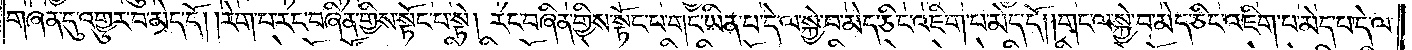གཞན་དུ་འགྱུར་བ་མེད་དོ། །རེག་པ་རང་བཞིན་གྱིས་སྟོང་པ་སྟེ། རང་བཞིན་གྱིས་སྟོང་པ་གང་ཡིན་པ་དེ་ལ་སྐྱེ་བ་མེད་ཅིང་འཇིག་པ་མེད་དོ། །གང་ལ་སྐྱེ་བ་མེད་ཅིང་འཇིག་པ་མེད་པ་དེ་ལ་
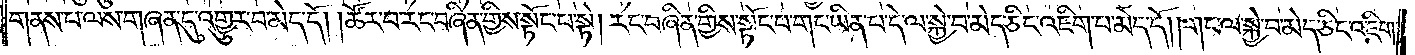གནས་པ་ལས་གཞན་དུ་འགྱུར་བ་མེད་དོ། །ཚོར་བ་རང་བཞིན་གྱིས་སྟོང་པ་སྟེ། རང་བཞིན་གྱིས་སྟོང་པ་གང་ཡིན་པ་དེ་ལ་སྐྱེ་བ་མེད་ཅིང་འཇིག་པ་མེད་དོ། །གང་ལ་སྐྱེ་བ་མེད་ཅིང་འཇིག་
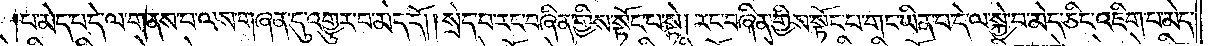པ་མེད་པ་དེ་ལ་གནས་པ་ལས་གཞན་དུ་འགྱུར་བ་མེད་དོ། །སྲེད་པ་རང་བཞིན་གྱིས་སྟོང་པ་སྟེ། རང་བཞིན་གྱིས་སྟོང་པ་གང་ཡིན་པ་དེ་ལ་སྐྱེ་བ་མེད་ཅིང་འཇིག་པ་མེད་
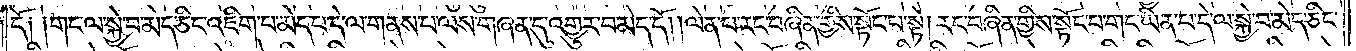དོ༑ ༑གང་ལ་སྐྱེ་བ་མེད་ཅིང་འཇིག་པ་མེད་པ་དེ་ལ་གནས་པ་ལས་གཞན་དུ་འགྱུར་བ་མེད་དོ། །ལེན་པ་རང་བཞིན་གྱིས་སྟོང་པ་སྟེ། རང་བཞིན་གྱིས་སྟོང་པ་གང་ཡིན་པ་དེ་ལ་སྐྱེ་བ་མེད་ཅིང་
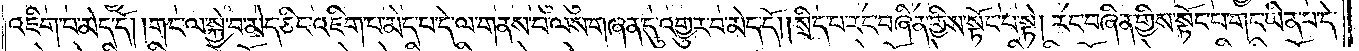འཇིག་པ་མེད་དོ། །གང་ལ་སྐྱེ་བ་མེད་ཅིང་འཇིག་པ་མེད་པ་དེ་ལ་གནས་པ་ལས་གཞན་དུ་འགྱུར་བ་མེད་དོ། །སྲིད་པ་རང་བཞིན་གྱིས་སྟོང་པ་སྟེ། རང་བཞིན་གྱིས་སྟོང་པ་གང་ཡིན་པ་དེ་
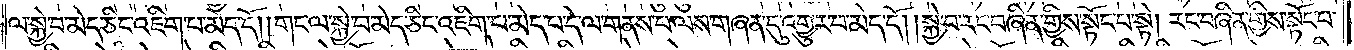ལ་སྐྱེ་བ་མེད་ཅིང་འཇིག་པ་མེད་དོ། །གང་ལ་སྐྱེ་བ་མེད་ཅིང་འཇིག་པ་མེད་པ་དེ་ལ་གནས་པ་ལས་གཞན་དུ་འགྱུར་བ་མེད་དོ། །སྐྱེ་བ་རང་བཞིན་གྱིས་སྟོང་པ་སྟེ། རང་བཞིན་གྱིས་སྟོང་པ་
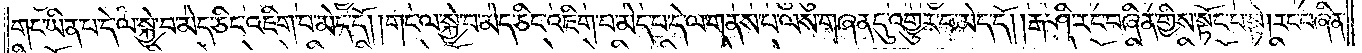གང་ཡིན་པ་དེ་ལ་སྐྱེ་བ་མེད་ཅིང་འཇིག་པ་མེད་དོ། །གང་ལ་སྐྱེ་བ་མེད་ཅིང་འཇིག་པ་མེད་པ་དེ་ལ་གནས་པ་ལས་གཞན་དུ་འགྱུར་བ་མེད་དོ། །རྒ་ཤི་རང་བཞིན་གྱིས་སྟོང་པ་སྟེ། རང་བཞིན་
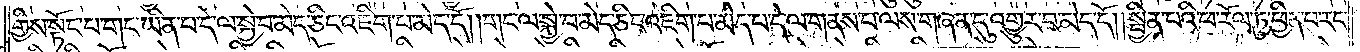གྱིས་སྟོང་པ་གང་ཡིན་པ་དེ་ལ་སྐྱེ་བ་མེད་ཅིང་འཇིག་པ་མེད་དོ། །གང་ལ་སྐྱེ་བ་མེད་ཅིང་འཇིག་པ་མེད་པ་དེ་ལ་གནས་པ་ལས་གཞན་དུ་འགྱུར་བ་མེད་དོ། །སྦྱིན་པའི་ཕ་རོལ་ཏུ་ཕྱིན་པ་རང་
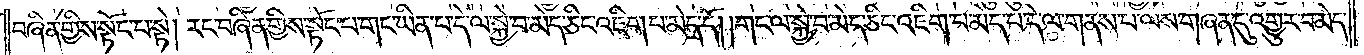བཞིན་གྱིས་སྟོང་པ་སྟེ། རང་བཞིན་གྱིས་སྟོང་པ་གང་ཡིན་པ་དེ་ལ་སྐྱེ་བ་མེད་ཅིང་འཇིག་པ་མེད་དོ། །གང་ལ་སྐྱེ་བ་མེད་ཅིང་འཇིག་པ་མེད་པ་དེ་ལ་གནས་པ་ལས་གཞན་དུ་འགྱུར་བ་མེད་
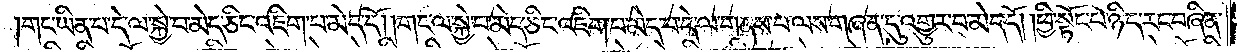གང་ཡིན་པ་དེ་ལ་སྐྱེ་བ་མེད་ཅིང་འཇིག་པ་མེད་དོ། ། གང་ལ་སྐྱེ་བ་མེད་ཅིང་འཇིག་པ་མེད་པ་དེ་ལ་གནས་པ་ལས་གཞན་དུ་འགྱུར་བ་མེད་དོ། །ཕྱི་སྟོང་པ་ཉིད་རང་བཞིན་
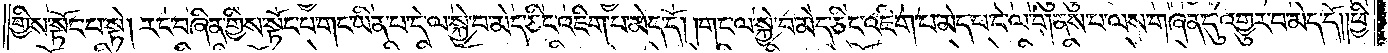གྱིས་སྟོང་པ་སྟེ། རང་བཞིན་གྱིས་སྟོང་པ་གང་ཡིན་པ་དེ་ལ་སྐྱེ་བ་མེད་ཅིང་འཇིག་པ་མེད་དོ། །གང་ལ་སྐྱེ་བ་མེད་ཅིང་འཇིག་པ་མེད་པ་དེ་ལ་གནས་པ་ལས་གཞན་དུ་འགྱུར་བ་མེད་དོ། །ཕྱི་
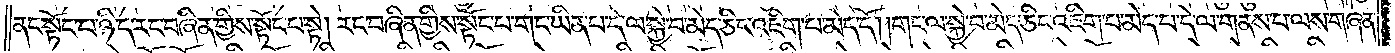ནང་སྟོང་པ་ཉིད་རང་བཞིན་གྱིས་སྟོང་པ་སྟེ། རང་བཞིན་གྱིས་སྟོང་པ་གང་ཡིན་པ་དེ་ལ་སྐྱེ་བ་མེད་ཅིང་འཇིག་པ་མེད་དོ། །གང་ལ་སྐྱེ་བ་མེད་ཅིང་འཇིག་པ་མེད་པ་དེ་ལ་གནས་པ་ལས་གཞན་
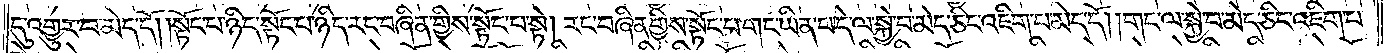དུ་འགྱུར་བ་མེད་དོ། །སྟོང་པ་ཉིད་སྟོང་པ་ཉིད་རང་བཞིན་གྱིས་སྟོང་པ་སྟེ། རང་བཞིན་གྱིས་སྟོང་པ་གང་ཡིན་པ་དེ་ལ་སྐྱེ་བ་མེད་ཅིང་འཇིག་པ་མེད་དོ། །གང་ལ་སྐྱེ་བ་མེད་ཅིང་འཇིག་པ་
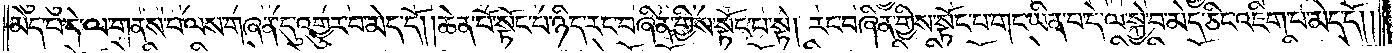མེད་པ་དེ་ལ་གནས་པ་ལས་གཞན་དུ་འགྱུར་བ་མེད་དོ། །ཆེན་པོ་སྟོང་པ་ཉིད་རང་བཞིན་གྱིས་སྟོང་པ་སྟེ། རང་བཞིན་གྱིས་སྟོང་པ་གང་ཡིན་པ་དེ་ལ་སྐྱེ་བ་མེད་ཅིང་འཇིག་པ་མེད་དོ། །
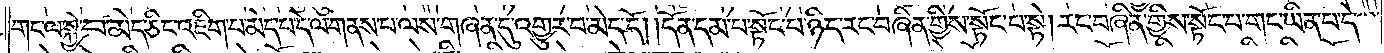གང་ལ་སྐྱེ་བ་མེད་ཅིང་འཇིག་པ་མེད་པ་དེ་ལ་གནས་པ་ལས་གཞན་དུ་འགྱུར་བ་མེད་དོ། །དོན་དམ་པ་སྟོང་པ་ཉིད་རང་བཞིན་གྱིས་སྟོང་པ་སྟེ། རང་བཞིན་གྱིས་སྟོང་པ་གང་ཡིན་པ་དེ་
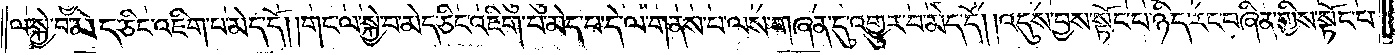ལ་སྐྱེ་བ་མེད་ཅིང་འཇིག་པ་མེད་དོ། །གང་ལ་སྐྱེ་བ་མེད་ཅིང་འཇིག་པ་མེད་པ་ད་ལ་གནས་པ་ལས་གཞན་དུ་འགྱུར་བ་མེད་དོ། །འདུས་བྱས་སྟོང་པ་ཉིད་རང་བཞིན་གྱིས་སྟོང་པ་
